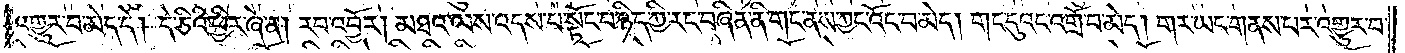འགྱུར་བ་མེད་དེ། དེ་ཅིའི་ཕྱིར་ཞེ་ན། རབ་འབྱོར། མཐའ་ལས་འདས་པ་སྟོང་པ་ཉིད་ཀྱི་རང་བཞིན་ནི་གང་ནས་ཀྱང་འོང་བ་མེད། གང་དུའང་འགྲོ་བ་མེད། གར་ཡང་གནས་པར་འགྱུར་བ་
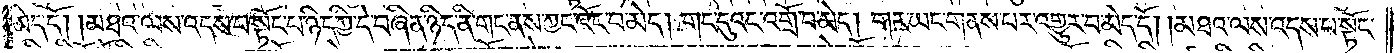མེད་དོ། །མཐའ་ལས་འདས་པ་སྟོང་པ་ཉིད་ཀྱི་དེ་བཞིན་ཉིད་ནི་གང་ནས་ཀྱང་འོང་བ་མེད། གང་དུའང་འགྲོ་བ་མེད། གར་ཡང་གནས་པར་འགྱུར་བ་མེད་དོ། །མཐའ་ལས་འདས་པ་སྟོང་
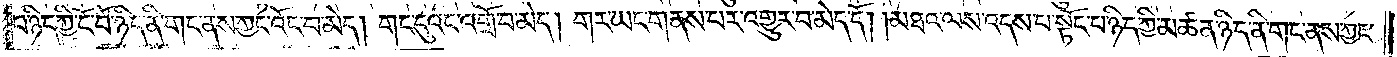པ་ཉིད་ཀྱི་ངོ་བོ་ཉིད་ནི་གང་ནས་ཀྱང་འོང་བ་མེད། གང་དུའང་འགྲོ་བ་མེད། གར་ཡང་གནས་པར་འགྱུར་བ་མེད་དོ། །མཐའ་ལས་འདས་པ་སྟོང་པ་ཉིད་ཀྱི་མཚན་ཉིད་ནི་གང་ནས་ཀྱང་
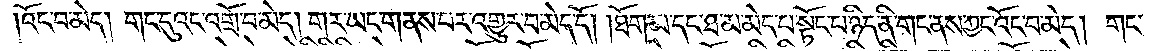འོང་བ་མེད། གང་དུའང་འགྲོ་བ་མེད། གར་ཡང་གནས་པར་འགྱུར་བ་མེད་དོ། །ཐོག་མ་དང་ཐ་མ་མེད་པ་སྟོང་པ་ཉིད་ནི་གང་ནས་ཀྱང་འོང་བ་མེད། གང་
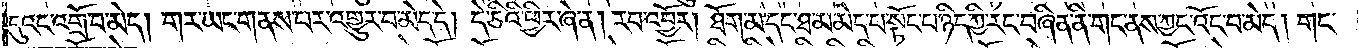དུའང་འགྲོ་བ་མེད། གར་ཡང་གནས་པར་འགྱུར་བ་མེད་དེ། དེ་ཅིའི་ཕྱིར་ཞེ་ན། རབ་འབྱོར། ཐོག་མ་དང་ཐ་མ་མེད་པ་སྟོང་པ་ཉིད་ཀྱི་རང་བཞིན་ནི་གང་ནས་ཀྱང་འོང་བ་མེད། གང་
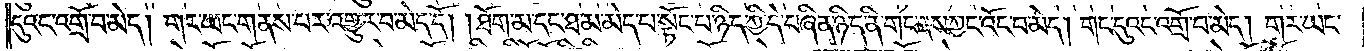དུའང་འགྲོ་བ་མེད། གར་ཡང་གནས་པར་འགྱུར་བ་མེད་དོ། །ཐོག་མ་དང་ཐ་མ་མེད་པ་སྟོང་པ་ཉིད་ཀྱི་དེ་བཞིན་ཉིད་ནི་གང་ནས་ཀྱང་འོང་བ་མེད། གང་དུའང་འགྲོ་བ་མེད། གར་ཡང་
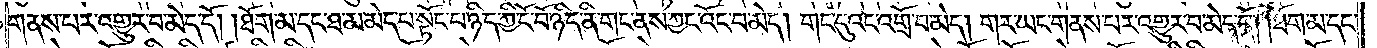གནས་པར་འགྱུར་བ་མེད་དོ། །ཐོག་མ་དང་ཐ་མ་མེད་པ་སྟོང་པ་ཉིད་ཀྱི་ངོ་བོ་ཉིད་ནི་གང་ནས་ཀྱང་འོང་བ་མེད། གང་དུའང་འགྲོ་བ་མེད། གར་ཡང་གནས་པར་འགྱུར་བ་མེད་དོ། །ཐོག་མ་དང་
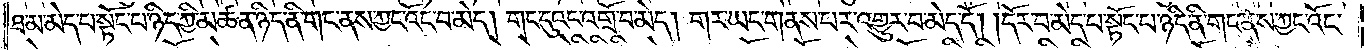ཐ་མ་མེད་པ་སྟོང་པ་ཉིད་ཀྱི་མཚན་ཉིད་ནི་གང་ནས་ཀྱང་འོང་བ་མེད། གང་དུའང་འགྲོ་བ་མེད། གར་ཡང་གནས་པར་འགྱུར་བ་མེད་དོ། །དོར་བ་མེད་པ་སྟོང་པ་ཉིད་ནི་གང་ནས་ཀྱང་འོང་
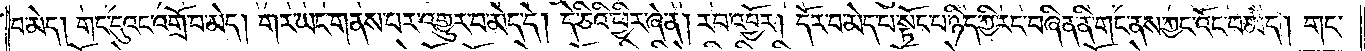བ་མེད། གང་དུའང་འགྲོ་བ་མེད། གར་ཡང་གནས་པར་འགྱུར་བ་མེད་དེ། དེ་ཅིའི་ཕྱིར་ཞེ་ན། རབ་འབྱོར། དོར་བ་མེད་པ་སྟོང་པ་ཉིད་ཀྱི་རང་བཞིན་ནི་གང་ནས་ཀྱང་འོང་བ་མེད། གང་
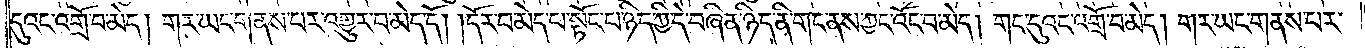དུའང་འགྲོ་བ་མེད། གར་ཡང་གནས་པར་འགྱུར་བ་མེད་དེ། །དོར་བ་མེད་པ་སྟོང་པ་ཉིད་ཀྱི་དེ་བཞིན་ཉིད་ནི་གང་ནས་ཀྱང་འོང་བ་མེད། གང་དུའང་འགྲོ་བ་མེད། གར་ཡང་གནས་པར་
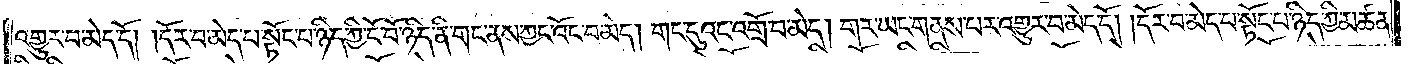འགྱུར་བ་མེད་དོ། །དོར་བ་མེད་པ་སྟོང་པ་ཉིད་ཀྱི་ངོ་བོ་ཉིད་ནི་གང་ནས་ཀྱང་འོང་བ་མེད། གང་དུའང་འགྲོ་བ་མེད། གར་ཡང་གནས་པར་འགྱུར་བ་མེད་དོ། །དོར་བ་མེད་པ་སྟོང་པ་ཉིད་ཀྱི་མཚན་
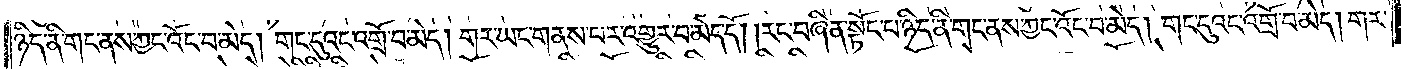ཉིད་ནི་གང་ནས་ཀྱང་འོང་བ་མེད། གང་དུའང་འགྲོ་བ་མེད། གར་ཡང་གནས་པར་འགྱུར་བ་མེད་དོ། །རང་བཞིན་སྟོང་པ་ཉིད་ནི་གང་ནས་ཀྱང་འོང་བ་མེད། གང་དུའང་འགྲོ་བ་མེད། གར་
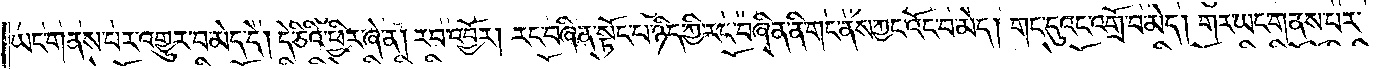ཡང་གནས་པར་འགྱུར་བ་མེད་དེ། དེ་ཅིའི་ཕྱིར་ཞེ་ན། རབ་འབྱོར། རང་བཞིན་སྟོང་པ་ཉིད་ཀྱི་རང་བཞིན་ནི་གང་ནས་ཀྱང་འོང་བ་མེད། གང་དུའང་འགྲོ་བ་མེད། གར་ཡང་གནས་པར་
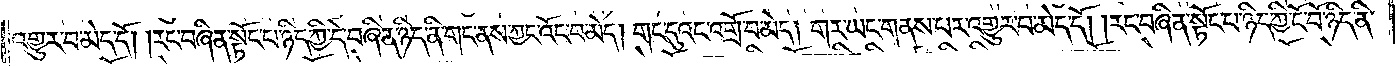འགྱུར་བ་མེད་དོ། །རང་བཞིན་སྟོང་པ་ཉིད་ཀྱི་དེ་བཞིན་ཉིད་ནི་གང་ནས་ཀྱང་འོང་བ་མེད། གང་དུའང་འགྲོ་བ་མེད། གར་ཡང་གནས་པར་འགྱུར་བ་མེད་དོ། །རང་བཞིན་སྟོང་པ་ཉིད་ཀྱི་ངོ་བོ་ཉིད་ནི་
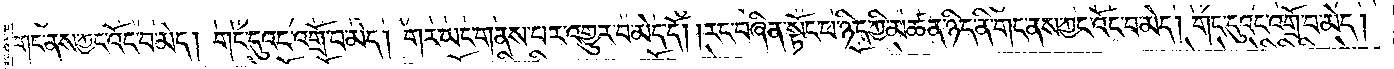གང་ནས་ཀྱང་འོང་བ་མེད། གང་དུའང་འགྲོ་བ་མེད། གར་ཡང་གནས་པར་འགྱུར་བ་མེད་དོ། །རང་བཞིན་སྟོང་པ་ཉིད་ཀྱི་མཚན་ཉིད་ནི་གང་ནས་ཀྱང་འོང་བ་མེད། གང་དུའང་འགྲོ་བ་མེད།
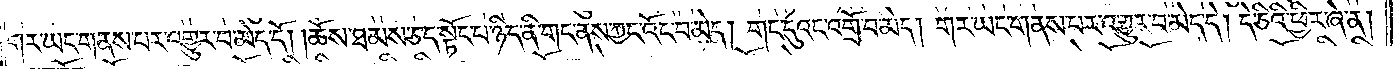གར་ཡང་གནས་པར་འགྱུར་བ་མེད་དོ། །ཆོས་ཐམས་ཅད་སྟོང་པ་ཉིད་ནི་གང་ནས་ཀྱང་འོང་བ་མེད། གང་དུའང་འགྲོ་བ་མེད། གར་ཡང་གནས་པར་འགྱུར་བ་མེད་དོ། དེ་ཅིའི་ཕྱིར་ཞེ་ན།
